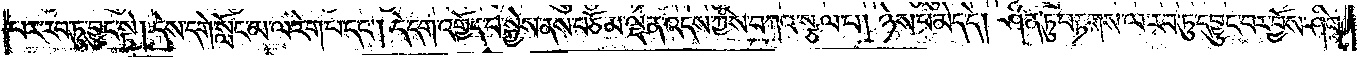པར་རབ་ཏུ་བྱུང་སྟེ། དེས་དགེ་སློང་མ་ལ་རེག་པ་དང༌། དེ་དག་འགྱོད་པ་སྐྱེས་ནས་བཅོམ་ལྡན་འདས་ཀྱིས་བཀའ་སྩལ་པ། ཉེས་པ་མེད་དེ། ཤིན་ཏུ་བརྟགས་ལ་རབ་ཏུ་དབྱུང་བར་བྱོས་ཤིག་
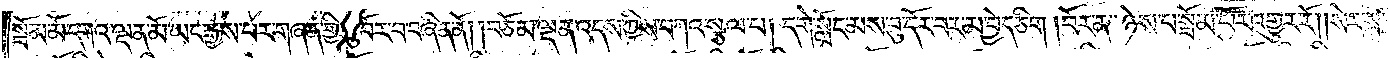སྦོམ་མོ་དགའ་ལྡན་མོ་ཡང་རྒྱས་པར་གཞན་གྱི་བུ་བོར་བ་བཞིན་ནོ། །བཅོམ་ལྡན་འདས་ཀྱིས་བཀའ་སྩལ་པ། དགེ་སློང་མས་བུ་དོར་བར་མ་བྱེད་ཅིག །བོར་ན་ཉེས་པ་སྦོམ་པོར་འགྱུར་རོ། །སེར་སྐྱ་
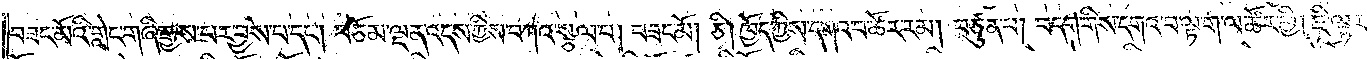བཟང་མོའི་གླེང་གཞི་རྒྱས་པར་བྱས་པ་དང༌། བཅོམ་ལྡན་འདས་ཀྱིས་བཀའ་སྩལ་པ། བཟང་མོ། ཅི་ཁྱོད་ཀྱིས་དགའ་བ་ཚོར་རམ། བཙུན་པ། བདག་གིས་དགའ་བ་ལྟ་ག་ལ་ཚོར་གྱི། ཇི་ལྟར་
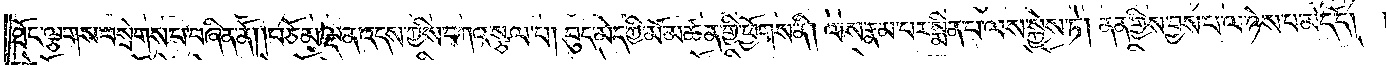ཐོང་ལྕགས་བསྲེགས་པ་བཞིན་ནོ། །བཅོམ་ལྡན་འདས་ཀྱིས་བཀའ་སྩལ་པ། བུད་མེད་ཀྱི་མོ་མཚན་གྱི་ཕྱོགས་ནི། ལས་རྣམ་པར་སྨིན་པ་ལས་སྐྱེས་ཏེ། ནན་གྱིས་བྱས་པ་ལ་ཉེས་པ་མེད་དོ། །
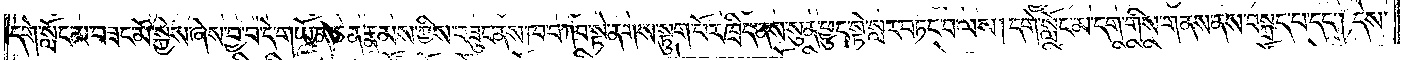དགེ་སློང་མ་བཟང་མོ་སྐྱེས་ཞེས་བྱ་བ་དེ་གཡོན་ཅན་རྣམས་ཀྱིས་བཟུང་ནས་ཁ་བཀབ་སྟེ་ནགས་སྟུག་པོར་ཁྲིད་ནས་སུན་ཕྱུང་སྟེ་སླར་བཏང་བ་ལས། དགེ་སློང་མ་དག་གིས་གནས་ནས་བསྐྲད་པ་དང༌། དེས་
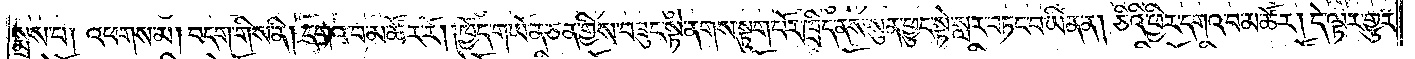སྨྲས་པ། འཕགས་མ། བདག་གིས་ནི། དགའ་བ་ཚོར་རོ། །ཁྱོད་གཡོན་ཅན་གྱིས་བཟུང་སྟེ་ནགས་སྟུག་པོར་ཁྲིད་ནས་སུན་ཕྱུང་སྟེ་སླར་བཏང་བ་ཡིན་ན། ཅིའི་ཕྱིར་དགའ་བ་མ་ཚོར། དེ་ལྟར་གྱུར་
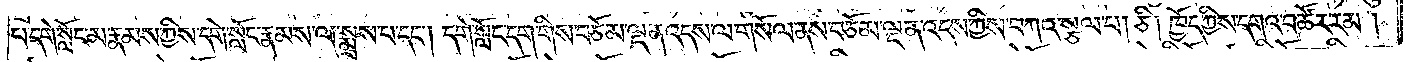པ་དགེ་སློང་མ་རྣམས་ཀྱིས་དགེ་སློང་རྣམས་ལ་སྨྲས་པ་དང༌། དགེ་སློང་དག་གིས་བཅོམ་ལྡན་འདས་ལ་གསོལ་ནས་བཅོམ་ལྡན་འདས་ཀྱིས་བཀའ་སྩལ་པ། ཅི། ཁྱོད་ཀྱིས་དགའ་ཚོར་རམ།
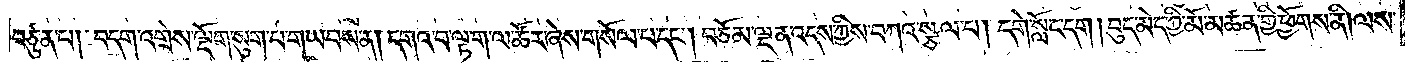བཙུན་པ། བདག་འགྲེས་ལྡོག་སུག་པ་གཡབས་ན། དགའ་བ་ལྟ་ག་ལ་ཚོར་ཞེས་གསོལ་བ་དང༌། བཅོམ་ལྡན་འདས་ཀྱིས་བཀའ་སྩལ་པ། དགེ་སློང་དག །བུད་མེད་ཀྱི་མོ་མཚན་གྱི་ཕྱོགས་ནི། ལས་
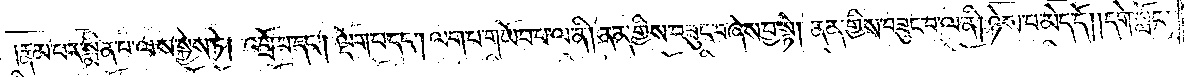རྣམ་པར་སྨིན་པ་ལས་སྐྱེས་ཏེ། འགྲོ་བ་དང༌། ལྡོག་པ་དང༌། ལག་པ་གཡོབ་པ་ལ་ནི། ནན་གྱིས་བཟུང་བ་ཞེས་བྱ་སྟེ། ནན་གྱིས་བཟུང་བ་ལ་ནི། ཉེས་པ་མེད་དོ། །དགེ་སློང་
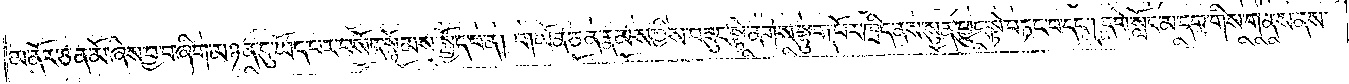མ་ནོར་ཅན་མོ་ཞེས་བྱ་བ་ཞིག་མཉན་དུ་ཡོད་པར་བསོད་སྙོམས་སྤྱོད་པ་ན། གཡོན་ཅན་རྣམས་ཀྱིས་བཟུང་སྟེ་ནགས་སྟུག་པོར་ཁྲིད་ནས་སུན་ཕྱུང་སྟེ་བཏང་བ་དང༌། དགེ་སློང་མ་དག་གིས་གནས་ནས་
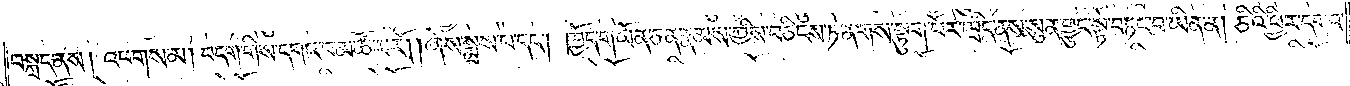བསྐྲད་ནས། འཕགས་མ། བདག་གིས་དགའ་བ་མ་ཚོར་རོ། །ཞེས་སྨྲས་པ་དང༌། ཁྱོད་གཡོན་ཅན་རྣམས་ཀྱིས་བཅིངས་ཏེ་ནགས་སྟུག་པོར་ཁྲིད་ནས་སུན་ཕྱུང་སྟེ་བཏང་བ་ཡིན་ན། ཅིའི་ཕྱིར་དགའ་
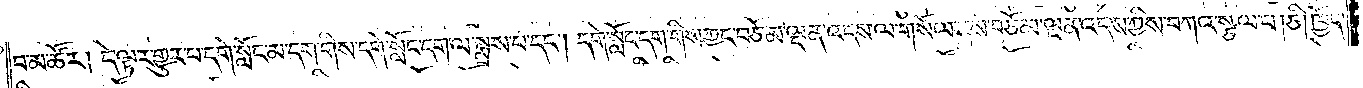བ་མཚོར། དེ་ལྟར་གྱུར་པ་དགེ་སློང་མ་དག་གིས་དགེ་སློང་དག་ལ་སྨྲས་པ་དང༌། དགེ་སློང་དག་གིས་ཀྱང་བཅོམ་ལྡན་འདས་ལ་གསོལ་ནས་བཅོམ་ལྡན་འདས་ཀྱིས་བཀའ་སྩལ་པ། ཅི། ཁྱོད་
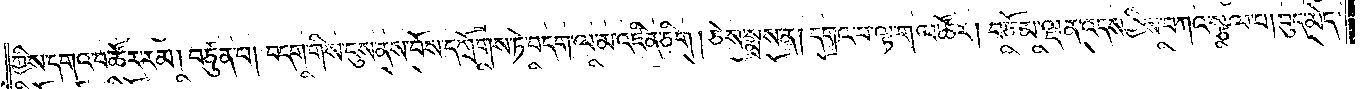ཀྱིས་དགའ་བ་ཚོར་རམ། བཙུན་པ། བདག་གིས་དུས་ནས་བོས་དཀྲོགས་ཏེ་བདག་ལ་མ་འཛིན་ཅིག །ཅེས་སྨྲས་ན། དགའ་བ་ལྟ་ག་ལ་ཚོར། བཅོམ་ལྡན་འདས་ཀྱིས་བཀའ་སྩལ་པ། བུད་མེད་
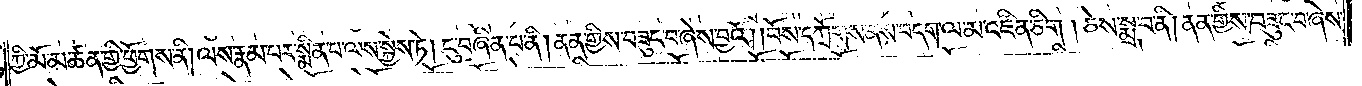ཀྱི་མོ་མཚོན་གྱི་ཕྱོགས་ནི། ལས་རྣམ་པར་སྨིན་པ་ལས་སྐྱེས་ཏེ། ངུ་བཞིན་པ་ནི། ནན་གྱིས་བཟུང་བ་ཞེས་བྱའོ། །བོས་དཀྲོགས་ནས་བདག་ལ་མ་འཛིན་ཅིག །ཅེས་སྨྲ་བ་ནི། ནན་གྱིས་བཟུང་བ་ཞེས་
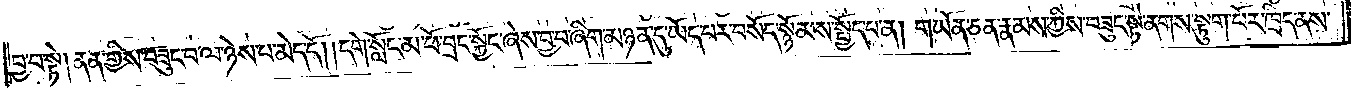བྱ་བ་སྟེ། ནན་གྱིས་བཟུང་བ་ལ་ཉེས་པ་མེད་དོ། །དགེ་སློང་མ་ཕོ་བྲང་སྐྱོང་ཞེས་བྱ་བ་ཞིག་མཉན་དུ་ཡོད་པར་བསོད་སྙོམས་སྤྱོད་པ་ན། གཡོན་ཅན་རྣམས་ཀྱིས་བཟུང་སྟེ་ནགས་སྟུག་པོར་ཁྲིད་ནས་
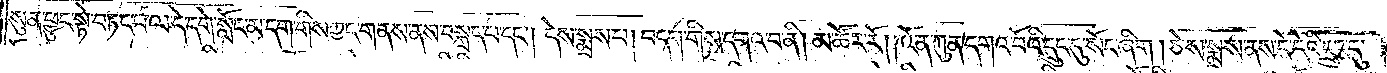སུན་ཕྱུང་སྟེ་བཏང་བ་ལ་དེ་དགེ་སློང་མ་དག་གིས་ཀྱང་གནས་ནས་བསྐྲད་པ་དང༌། དེས་སྨྲས་པ། བདག་གིས་དགའ་བ་ནི། མ་ཚོར་རོ། །འོན་ཀུན་དགའ་བོའི་དྲུང་དུ་སོང་ཞིག །ཅེས་སྨྲས་ནས་དེ་དེའི་དྲུང་དུ་
